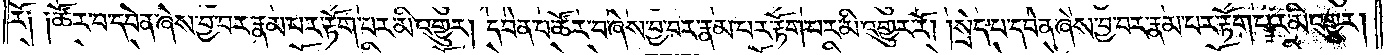རོ༑ ༑ཚོར་བ་དབེན་ཞེས་བྱ་བར་རྣམ་པར་རྟོག་པར་མི་འགྱུར། དབེན་པ་ཚོར་བ་ཞེས་བྱ་བར་རྣམ་པར་རྟོག་པར་མི་འགྱུར་རོ། །སྲེད་པ་དབེན་ཞེས་བྱ་བར་རྣམ་པར་རྟོག་པར་མི་འགྱུར།
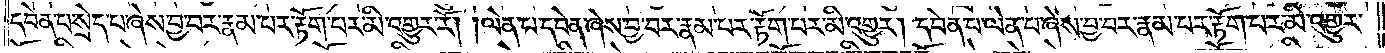དབེན་པ་སྲེད་པ་ཞེས་བྱ་བར་རྣམ་པར་རྟོག་པར་མི་འགྱུར་རོ། །ལེན་པ་དབེན་ཞེས་བྱ་བར་རྣམ་པར་རྟོག་པར་མི་འགྱུར། དབེན་པ་ལེན་པ་ཞེས་བྱ་བར་རྣམ་པར་རྟོག་པར་མི་འགྱུར་
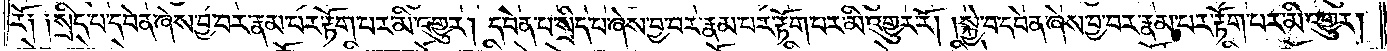རོ༏ ༏སྲིད་པ་དབེན་ཞེས་བྱ་བར་རྣམ་པར་རྟོག་པར་མི་འགྱུར། དབེན་པ་སྲིད་པ་ཞེས་བྱ་བར་རྣམ་པར་རྟོག་པར་མི་འགྱུར་རོ། །སྐྱེ་བ་དབེན་ཞེས་བྱ་བར་རྣམ་པར་རྟོག་པར་མི་འགྱུར།
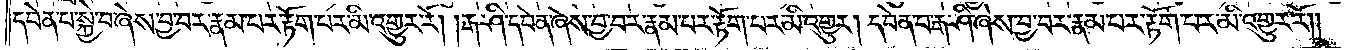དབེན་པ་སྐྱེ་བ་ཞེས་བྱ་བར་རྣམ་པར་རྟོག་པར་མི་འགྱུར་རོ། །རྒ་ཤི་དབེན་ཞེས་བྱ་བར་རྣམ་པར་རྟོག་པར་མི་འགྱུར། དབེན་པ་རྒ་ཤི་ཞེས་བྱ་བར་རྣམ་པར་རྟོག་པར་མི་འགྱུར་རོ༎
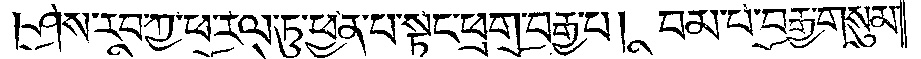ཤེས་རབ་ཀྱི་ཕ་རོལ་ཏུ་ཕྱིན་པ་སྟོང་ཕྲག་བརྒྱ་པ། །བམ་པོ་བརྒྱ་གསུམ་
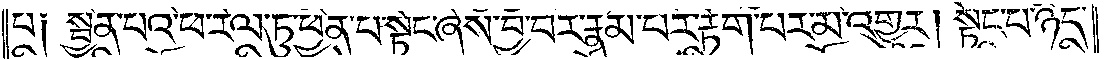པ༏ སྦྱིན་པའི་ཕ་རོལ་ཏུ་ཕྱིན་པ་སྟོང་ཞེས་བྱ་བར་རྣམ་པར་རྟོག་པར་མི་འགྱུར། སྟོང་པ་ཉིད་
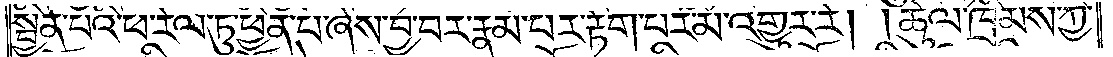སྦྱིན་པའི་ཕ་རོལ་ཏུ་ཕྱིན་པ་ཞེས་བྱ་བར་རྣམ་པར་རྟོག་པར་མི་འགྱུར་རོ། །ཚུལ་ཁྲིམས་ཀྱི་
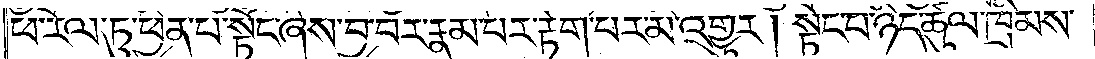ཕ་རོལ་ཏུ་ཕྱིན་པ་སྟོང་ཞེས་བྱ་བར་རྣམ་པར་རྟོག་པར་མི་འགྱུར། སྟོང་པ་ཉིད་ཚུལ་ཁྲིམས་
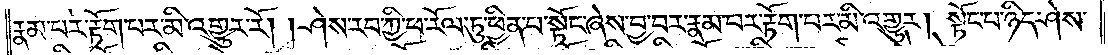རྣམ་པར་རྟོག་པར་མི་འགྱུར་རོ། །ཤེས་རབ་ཀྱི་ཕ་རོལ་ཏུ་ཕྱིན་པ་སྟོང་ཞེས་བྱ་བར་རྣམ་པར་རྟོག་པར་མི་འགྱུར། སྟོང་པ་ཉིད་ཤེས་
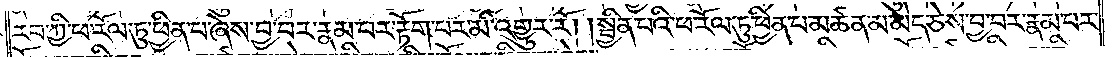རབ་ཀྱི་ཕ་རོལ་ཏུ་ཕྱིན་པ་ཞེས་བྱ་བར་རྣམ་པར་རྟོག་པར་མི་འགྱུར་རོ། །སྦྱིན་པའི་ཕ་རོལ་ཏུ་ཕྱིན་པ་མཚན་མ་མེད་ཅེས་བྱ་བར་རྣམ་པར་
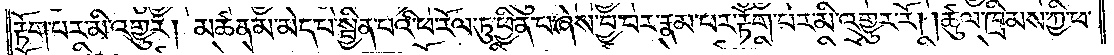རྟོག་པར་མི་འགྱུར། མཚན་མ་མེད་པ་སྦྱིན་པའི་ཕ་རོལ་ཏུ་ཕྱིན་པ་ཞེས་བྱ་བར་རྣམ་པར་རྟོག་པར་མི་འགྱུར་རོ། །ཚུལ་ཁྲིམས་ཀྱི་ཕ་
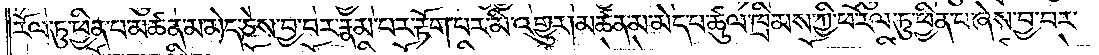རོལ་ཏུ་ཕྱིན་པ་མཚན་མ་མེད་ཅེས་བྱ་བར་རྣམ་པར་རྟོག་པར་མི་འགྱུར། མཚན་མ་མེད་པ་ཚུལ་ཁྲིམས་ཀྱི་ཕ་རོལ་ཏུ་ཕྱིན་པ་ཞེས་བྱ་བར་
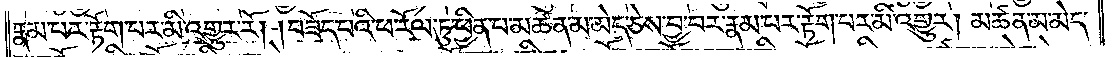རྣམ་པར་རྟོག་པར་མི་འགྱུར་རོ། །བཟོད་པའི་ཕ་རོལ་ཏུ་ཕྱིན་པ་མཚན་མ་མེད་ཅེས་བྱ་བར་རྣམ་པར་རྟོག་པར་མི་འགྱུར། མཚན་མ་མེད་
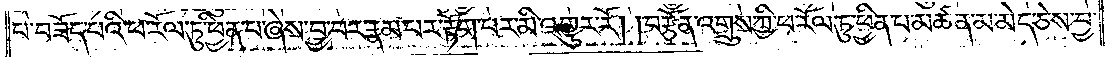པ་བཟོད་པའི་ཕ་རོལ་ཏུ་ཕྱིན་པ་ཞེས་བྱ་བར་རྣམ་པར་རྟོག་པར་མི་འགྱུར་རོ། །བརྩོན་འགྲུས་ཀྱི་ཕ་རོལ་ཏུ་ཕྱིན་པ་མཚན་མ་མེད་ཅེས་བྱ་
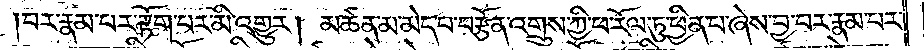བར་རྣམ་པར་རྟོག་པར་མི་འགྱུར། མཚན་མ་མེད་པ་བརྩོན་འགྲུས་ཀྱི་ཕ་རོལ་ཏུ་ཕྱིན་པ་ཞེས་བྱ་བར་རྣམ་པར་
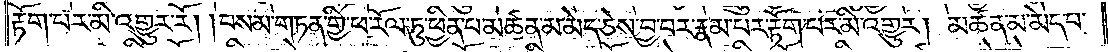རྟོག་པར་མི་འགྱུར་རོ། །བསམ་གཏན་གྱི་ཕ་རོལ་ཏུ་ཕྱིན་པ་མཚན་མ་མེད་ཅེས་བྱ་བར་རྣམ་པར་རྟོག་པར་མི་འགྱུར། མཚན་མ་མེད་པ་
